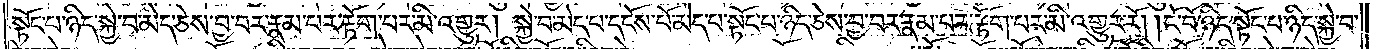སྟོང་པ་ཉིད་སྐྱེ་བ་མེད་ཅེས་བྱ་བར་རྣམ་པར་རྟོག་པར་མི་འགྱུར། སྐྱེ་བ་མེད་པ་དངོས་པོ་མེད་པ་སྟོང་པ་ཉིད་ཅེས་བྱ་བར་རྣམ་པར་རྟོག་པར་མི་འགྱུར་རོ། །ངོ་བོ་ཉིད་སྟོང་པ་ཉིད་སྐྱེ་བ་
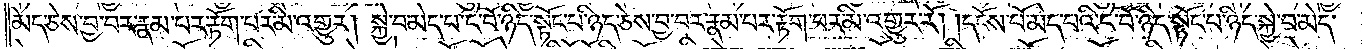མེད་ཅེས་བྱ་བར་རྣམ་པར་རྟོག་པར་མི་འགྱུར། སྐྱེ་བ་མེད་པ་ངོ་བོ་ཉིད་སྟོང་པ་ཉིད་ཅེས་བྱ་བར་རྣམ་པར་རྟོག་པར་མི་འགྱུར་རོ། །དངོས་པོ་མེད་པའི་ངོ་བོ་ཉིད་སྟོང་པ་ཉིད་སྐྱེ་བ་མེད་
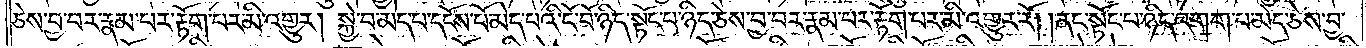ཅེས་བྱ་བར་རྣམ་པར་རྟོག་པར་མི་འགྱུར། སྐྱེ་བ་མེད་པ་དངོས་པོ་མེད་པའི་ངོ་བོ་ཉིད་སྟོང་པ་ཉིད་ཅེས་བྱ་བར་རྣམ་པར་རྟོག་པར་མི་འགྱུར་རོ། །ནང་སྟོང་པ་ཉིད་འགག་པ་མེད་ཅེས་བྱ་
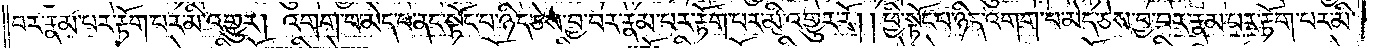བར་རྣམ་པར་རྟོག་པར་མི་འགྱུར། འགག་པ་མེད་པ་ནང་སྟོང་པ་ཉིད་ཅེས་བྱ་བར་རྣམ་པར་རྟོག་པར་མི་འགྱུར་རོ། །ཕྱི་སྟོང་པ་ཉིད་འགག་པ་མེད་ཅེས་བྱ་བར་རྣམ་པར་རྟོག་པར་མི་
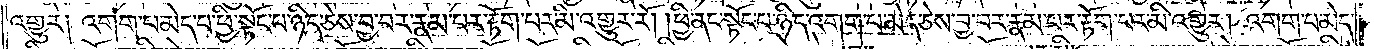འགྱུར༏ འགག་པ་མེད་པ་ཕྱི་སྟོང་པ་ཉིད་ཅེས་བྱ་བར་རྣམ་པར་རྟོག་པར་མི་འགྱུར་རོ། །ཕྱི་ནང་སྟོང་པ་ཉིད་འགག་པ་མེད་ཅེས་བྱ་བར་རྣམ་པར་རྟོག་པར་མི་འགྱུར། འགག་པ་མེད་
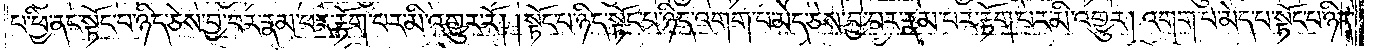པ་ཕྱི་ནང་སྟོང་པ་ཉིད་ཅེས་བྱ་བར་རྣམ་པར་རྟོག་བར་མི་འགྱུར་རོ། །སྟོང་པ་ཉིད་སྟོང་པ་ཉིད་འགག་པ་མེད་ཅེས་བྱ་བར་རྣམ་པར་རྟོག་པར་མི་འགྱུར། འགག་པ་མེད་པ་སྟོང་པ་ཉིད་
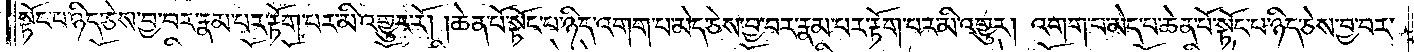སྟོང་པ་ཉིད་ཅེས་བྱ་བར་རྣམ་པར་རྟོག་པར་མི་འགྱུར་རོ། །ཆེན་པོ་སྟོང་པ་ཉིད་འགག་པ་མེད་ཅེས་བྱ་བར་རྣམ་པར་རྟོག་པར་མི་འགྱུར། འགག་པ་མེད་པ་ཆེན་པོ་སྟོང་པ་ཉིད་ཅེས་བྱ་བར་
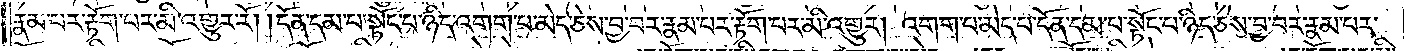རྣམ་པར་རྟོག་པར་མི་འགྱུར་རོ། །དོན་དམ་པ་སྟོང་པ་ཉིད་འགག་པ་མེད་ཅེས་བྱ་བར་རྣམ་པར་རྟོག་པར་མི་འགྱུར། འགག་པ་མེད་པ་དོན་དམ་པ་སྟོང་པ་ཉིད་ཅེས་བྱ་བར་རྣམ་པར་
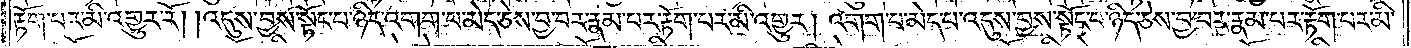རྟོག་པར་མི་འགྱུར་རོ། །འདུས་བྱས་སྟོང་པ་ཉིད་འགག་པ་མེད་ཅེས་བྱ་བར་རྣམ་པར་རྟོག་པར་མི་འགྱུར། འགག་པ་མེད་པ་འདུས་བྱས་སྟོང་པ་ཉིད་ཅེས་བྱ་བར་རྣམ་པར་རྟོག་པར་མི་
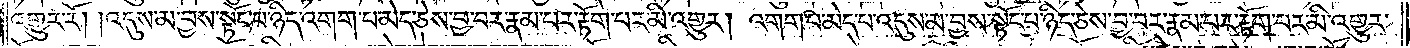འགྱུར་རོ། །འདུས་མ་བྱས་སྟོང་པ་ཉིད་འགག་པ་མེད་ཅེས་བྱ་བར་རྣམ་པར་རྟོག་པར་མི་འགྱུར། འགག་པ་མེད་པ་འདུས་མ་བྱས་སྟོང་པ་ཉིད་ཅེས་བྱ་བར་རྣམ་པར་རྟོག་པར་མི་འགྱུར་
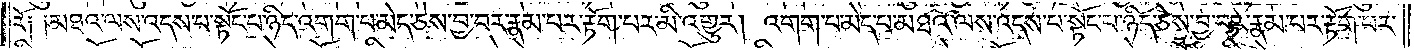རོ༏ ༏མཐའ་ལས་འདས་པ་སྟོང་པ་ཉིད་འགག་པ་མེད་ཅེས་བྱ་བར་རྣམ་པར་རྟོག་པར་མི་འགྱུར། འགག་པ་མེད་པ་མཐའ་ལས་འདས་པ་སྟོང་པ་ཉིད་ཅེས་བྱ་བར་རྣམ་པར་རྟོག་པར་
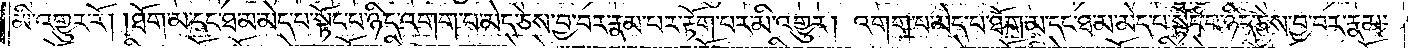མི་འགྱུར་རོ། །ཐོག་མ་དང་ཐ་མ་མེད་པ་སྟོང་པ་ཉིད་འགག་པ་མེད་ཅེས་བྱ་བར་རྣམ་པར་རྟོག་པར་མི་འགྱུར། འགག་པ་མེད་པ་ཐོག་མ་དང་ཐ་མ་མེད་པ་སྟོང་པ་ཉིད་ཅེས་བྱ་བར་རྣམ་
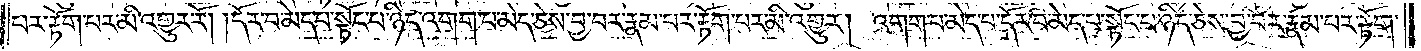པར་རྟོག་པར་མི་འགྱུར་རོ། །དོར་བ་མེད་པ་སྟོང་པ་ཉིད་འགག་པ་མེད་ཅེས་བྱ་བར་རྣམ་པར་རྟོག་པར་མི་འགྱུར། འགག་པ་མེད་པ་དོར་པ་མེད་པ་སྟོང་པ་ཉིད་ཅེས་བྱ་བར་རྣམ་པར་རྟོག་
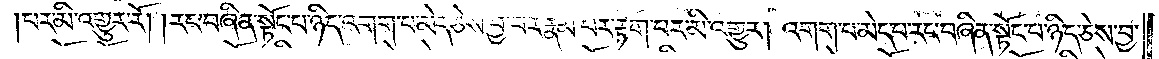པར་མི་འགྱུར་རོ། །རང་བཞིན་སྟོང་པ་ཉིད་འགག་པ་མེད་ཅེས་བྱ་བར་རྣམ་པར་རྟོག་པར་མི་འགྱུར། འགག་པ་མེད་པ་རང་བཞིན་སྟོང་པ་ཉིད་ཅེས་བྱ་
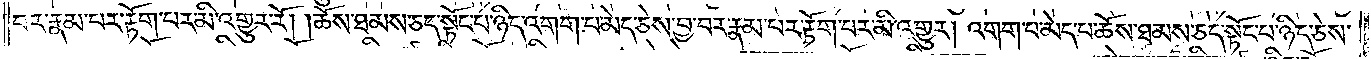བར་རྣམ་པར་རྟོག་པར་མི་འགྱུར་རོ། །ཆོས་ཐམས་ཅད་སྟོང་པ་ཉིད་འགག་པ་མེད་ཅེས་བྱ་བར་རྣམ་པར་རྟོག་པར་མི་འགྱུར། འགག་པ་མེད་པ་ཆོས་ཐམས་ཅད་སྟོང་པ་ཉིད་ཅེས་
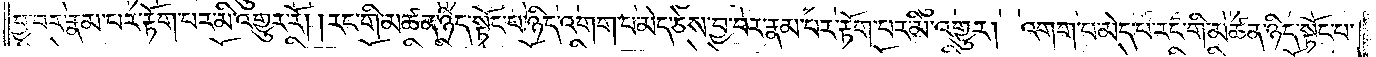བྱ་བར་རྣམ་པར་རྟོག་པར་མི་འགྱུར་རོ། །རང་གི་མཚན་ཉིད་སྟོང་པ་ཉིད་འགག་པ་མེད་ཅེས་བྱ་བར་རྣམ་པར་རྟོག་པར་མི་འགྱུར། འགག་པ་མེད་པ་རང་གི་མཚན་ཉིད་སྟོང་པ་
